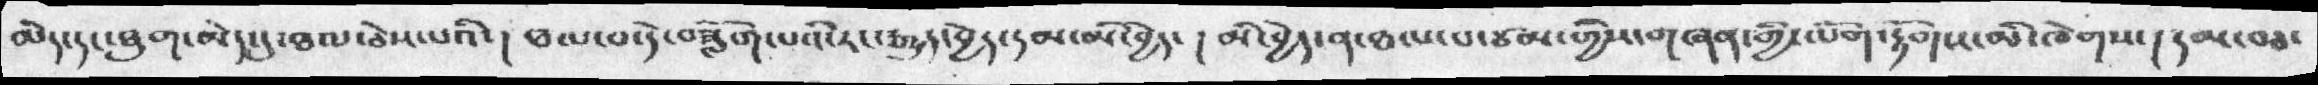མེད་དང་ཐུག་མེད་དུ་ཐལ་ཅེས་པའི་། ཐལ་བ་དེ་བཟློག་པའི་རང་རྒྱུད་བྱེད་དམ་མི་བྱེད་། །མི་བྱེད་ན་ཐལ་པ་ཙམ་གྱིས་གཞན་གྱི་ལོག་རྟོགས་མི་ཁེགས་། དམ་བཅ་
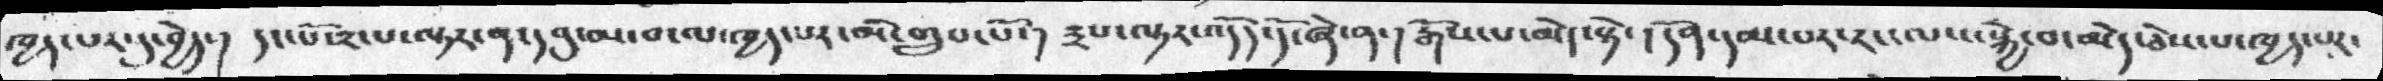ཁྱད་པར་དུ་བྱེད་། དང་པོ་༢་པ་ལྟར་ན་དབུ་མ་བ་ལ་ཁྱད་པར་མི་གྲུབ་པོ་། ༣པ་ལྟར་འདོད་དོ་ཞེ་ན་། རྒོས་པ་མེད་སྟེ་། དོན་དམ་པར་རང་ལས་སྐྱེ་བ་མེད་ཅེས་པ་ཁྱད་པར་
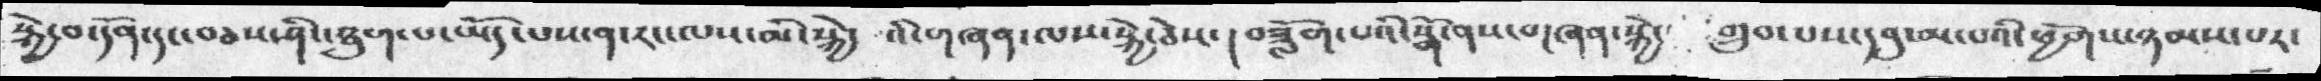སྐྱེ་བ་དོན་དང་བཅས་ཤིང་ཐུག་པ་ཡོད་པས་ན་རང་ལས་མི་སྐྱེ་ འི་གཞན་ལས་སྐྱེ་ཅེས་། བཟློག་པའི་སྒོ་ནས་གཞན་སྐྱེ་ གྲུབ་པས་དབུ་མ་པའི་ཕྱོགས་ཉམས་པར་
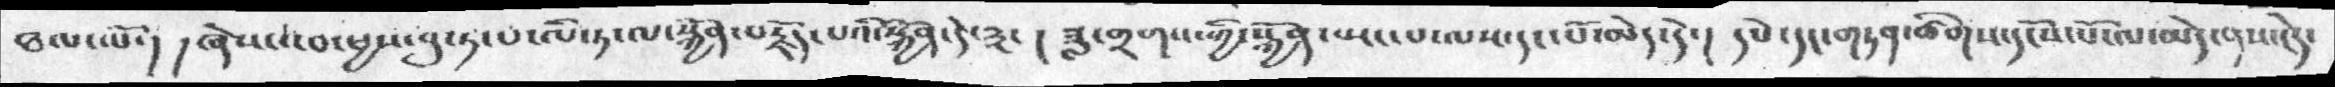ཐལ་ལོ་། །ཞེས་འབ་ཕྱས་བུ་ཏ་པ་ཨི་ཏ་ལ་སྐྱོན་བརྗོད་པའི་སྐྱོན་དེ་༣་། ཟླ་གྲགས་ཀྱི་སྐྱོན་སྤང་པ་ལས་དང་པོ་མེད་དེ་། དཔེ་དང་གཏན་ཚིགས་དངོས་པོ་ལ་མེད་ནས་ངེད་
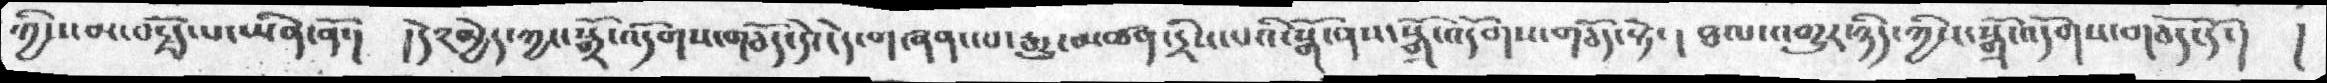ཀྱིས་མ་བརྗོད་པ་ཡིན་ནོ་། །དེར་མྱེད་ཀྱང་སྒྲོ་འདོགས་གཅོད་དེ་ངེད་གཞན་པ་རྒྱུ་མཚན་དྲིས་པའི་སྒོ་ནས་སྒྲོ་འདོགས་གཅོད་སྟེ་། ཐལ་འགྱུར་ཉིད་ཀྱིས་སྒྲོ་འདོགས་གཅོད་དོ་། །
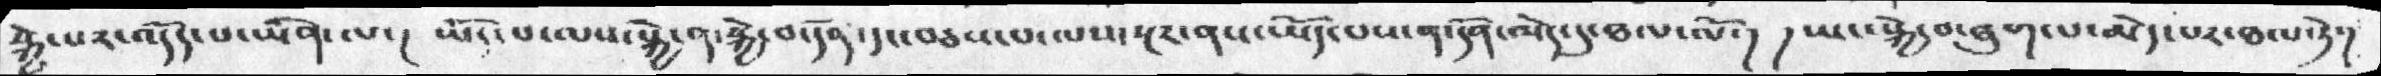སྐྱེ་པར་འདོད་པ་ཡིན་ལ་།  ཡོད་པ་ལས་སྐྱེ་ན་སྐྱེ་བ་དོན་དང་བཅས་པ་ལས་སྔར་ནས་ཡོད་པས་ན་དོན་མེད་དུ་ཐལ་ལོ་། །ཡང་སྐྱེ་བ་ཐུག་པ་མེད་པར་ཐལ་ཏེ་།
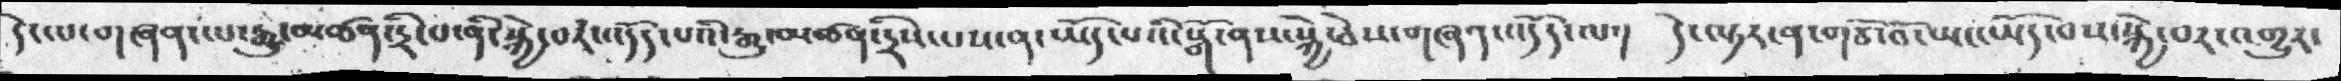དེ་ལ་གཞན་ལ་རྒྱུ་མཚན་དྲི་པ་ནི་སྐྱེ་བར་འདོད་པའི་རྒྱུ་མཚན་དྲིས་པས་ན་ཡོད་པའི་སྒོ་ནས་སྐྱེ་ཅེས་གཞན་འདོད་ལ་། དེ་ལྟར་ན་གཙོ་བོ་ཡང་ཡོད་པས་སྐྱེ་བར་འགྱུར་
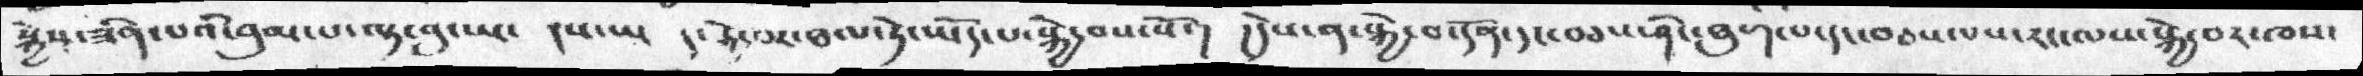སྐྱེས་ཟིན་པའི་བུམ་པ་ལྟ་བུ་ཡང་  །ས་ཡ   དུ་སྐྱེ་བར་ཐལ་ཏེ་ཡོད་པ་སྐྱེ་བས་སོ་།  །དེས་ན་སྐྱེ་བ་དོན་དང་བཅས་ཤིང་ཐུག་པ་དང་བཅས་པས་རང་ལས་སྐྱེ་བར་ཁས་
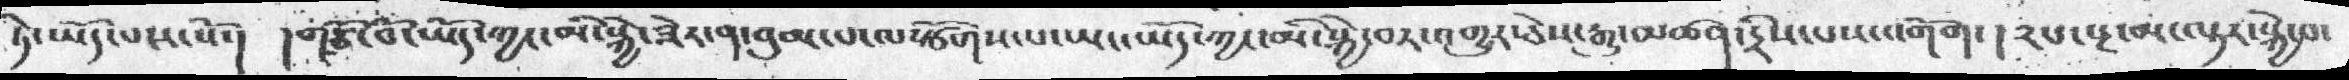ཏེ་ཡོད་པས་སོ་། །གཙོ་བོ་ཡོད་ཀྱང་མི་སྐྱེ་ཟེར་ན་བུམ་པ་ལསྩོགས་པ་ཡང་ཡོད་ཀྱང་མི་སྐྱེ་བར་འགྱུར་ཅེས་རྒྱུ་མཚན་དྲིས་པས་འགོག་། ༢པ་སྔ་མ་ལྟར་སྐྱེ་བ་
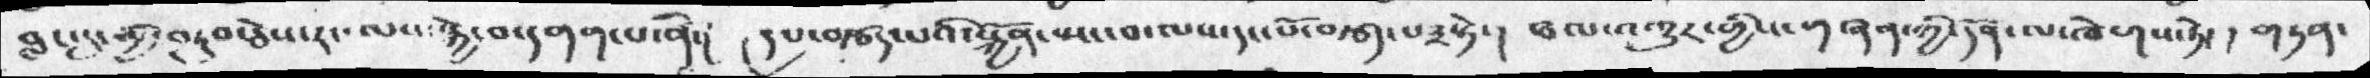བླང་དུ་མྱི་བཏུབ་ཅེས་རང་ལས་སྐྱེ་བ་དགག་པ་ནི་། །པ་བརྩད་པའི་སྐྱོན་སྤང་བ་ལས་དང་པོ་བརྩད་པ༣་སྟེ་། ཐལ་འགྱུར་གྱིས་གཞན་ཀྱི་དོན་ལ་ཁེགས་ཏེ་། གཏན་
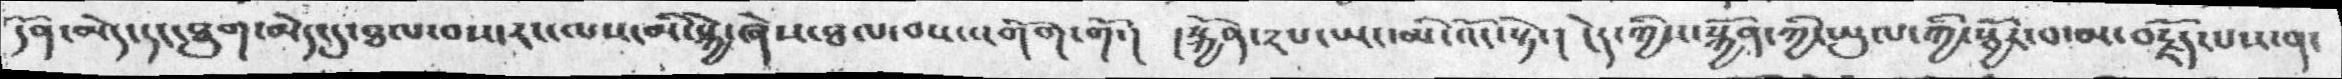དོན་མེད་དང་ཐུག་མེད་དུ་ཐལ་བས་རང་ལས་མི་སྐྱེ་ཞེས་ཐལ་བས་འགོག་གོ་། །སྐྱོན་༢པ་ཡང་མི་འོང་སྟེ་། ངེད་ཀྱིས་སྐྱོན་ཀྱི་ཡུལ་ཀྱི་སྦྱོར་བ་མ་བརྗོད་པས་ན་
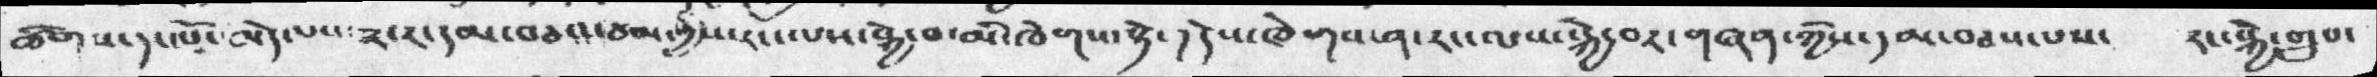ཚོགས་དང་པོ་མེ་དཔས་༢་རང་དམ་བཅའ་ཙམ་གྱིས་རང་ལས་སྐྱེ་བ་མི་ཁེགས་སྟེ་༡དེས་ཁེགསན་རང་ལས་སྐྱེ་བར་གཞན་ཀྱིས་དམ་བཅས་པས་  རང་སྐྱེ་གྲུབ་
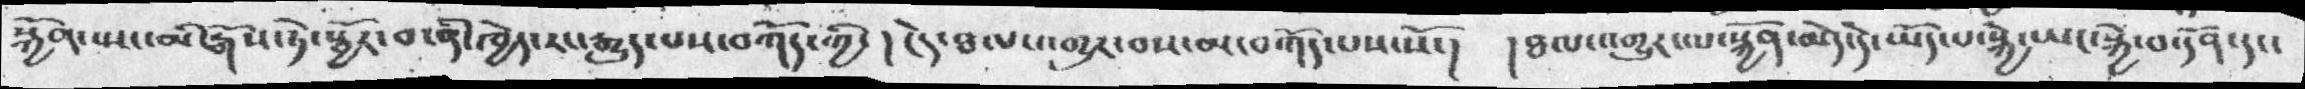སྐྱོན་སྤང་མི་རྒོས་ཏེ་སྦྱོར་བ་ནི་ཁྱེད་རང་རྒྱུད་པས་བཀོད་ཀྱི་། ངེད་ཐལ་འགྱུར་བས་མ་བཀོད་པས་སོ་། །ཐལ་འགྱུར་ལ་སྐྱོན་མེད་དེ་ཡོད་པ་སྐྱེ་ཡང་སྐྱེ་བ་དོན་དང་
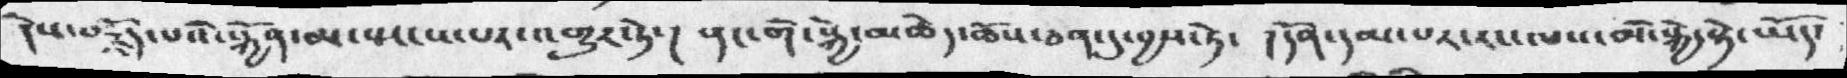དེས་བརྗོད་པའི་སྐྱོན་མ་སྤངས་པར་འགྱུར་ཏེ་། ནང་གི་སྐྱེ་མཆེད་ཆོས་ཅན་དུ་བྱས་ཏེ་ །དོན་དམ་པར་རང་ལས་མི་སྐྱེ་སྟེ་ཡོད་
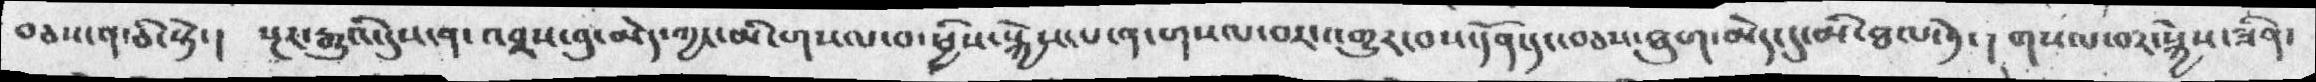བཅས་ན་ཅི་སྟེ་། སྔར་རྒྱུའི་དུས་ན་འབྲས་བུ་མེད་ཀྱང་མི་གསལ་བ་ཕྱིས་སྐྱེས་པ་ན་གསལ་བར་འགྱུར་བས་དོན་དང་བཅས་ཐུག་མེད་དུ་མི་ཐལ་ཏེ་། གསལ་བར་སྐྱེས་ཟིན་
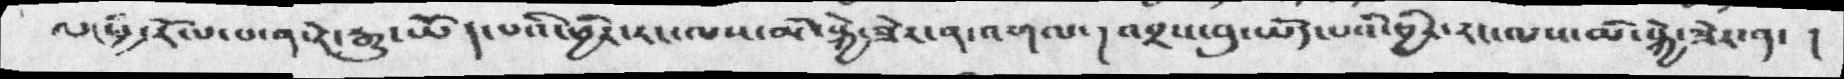ལ་ཕྱི་རོལ་པ་ན་རེ་རྒྱུ་ཡོད་པའི་ཕྱིར་རང་ལས་མི་སྐྱེ་ཟེར་ན་འགལ་། འབྲས་བུ་ཡོད་པའི་ཕྱིར་རང་ལས་མི་སྐྱེ་ཟེར་ན་  །
